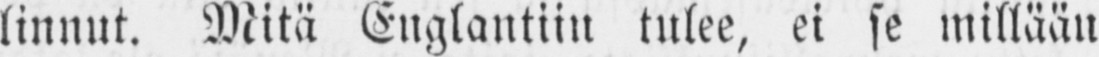linnut. Mitä Englantiin tulee, ei se millään
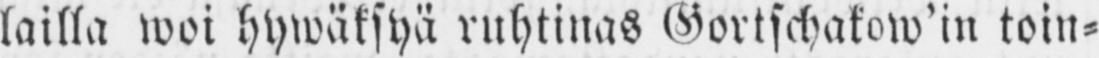lailla woi hywäksyä ruhtinas Gortschakow’in toin-
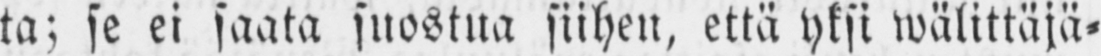ta; se ei saata suostua siihen, että yksi wälittäjä-
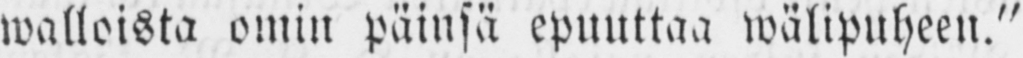walloista omin päinsä epuuttaa wälipuheen."
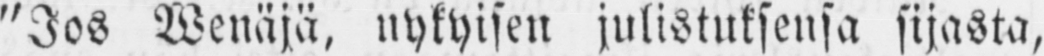"Jos Wenäjä, nykyisen julistuksensa sijasta,
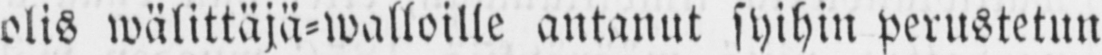olis wälittäjä-walloille antanut syihin perustetun
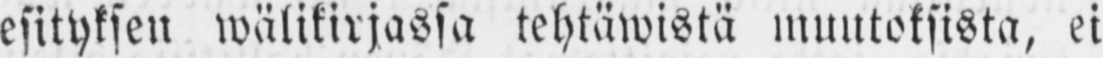esityksen wälikirjassa tehtäwistä muutoksista, ei
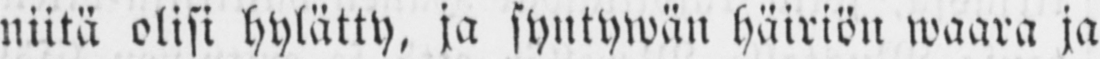niitä olisi hylätty, ja syntywän häiriön waara ja
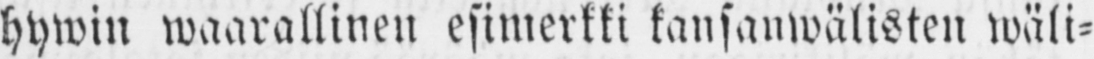hywin waarallinen esimerkki kansanwälisten wäli-
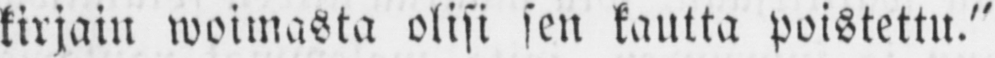kirjain woimasta olisi sen kautta poistettu."
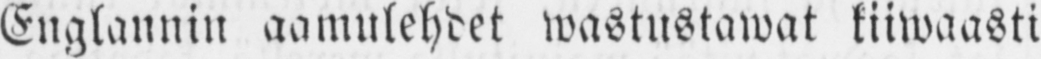Englannin aamulehdet wastustawat kiiwaasti
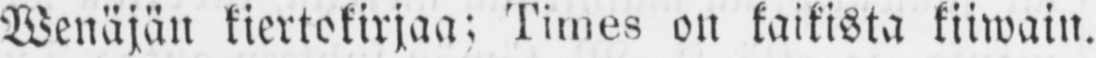Wenäjän kiertokirjaa; Times on kaikista kiiwain.
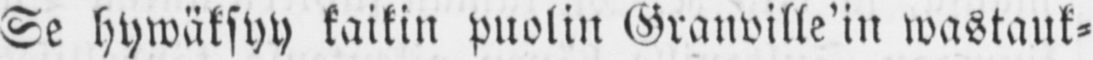Se hywäksyy kaikin puolin Granville’in wastauk-
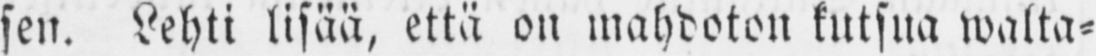sen. Lehti lisää, että on mahdoton kutsua walta-
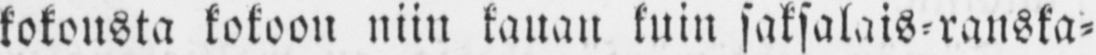kokousta kokoon niin kauan kuin saksalais-ranska-
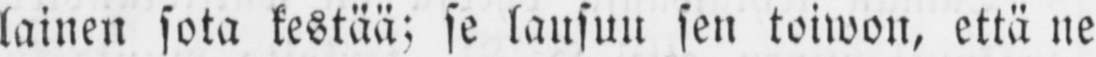lainen sota kestää; se lausun sen toiwon, että ne
